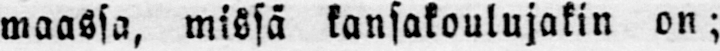maassa, missä kansakoulujakin on;
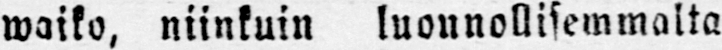waiko, niinkuin luonnollisemmalta
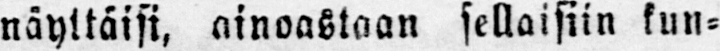näyttäisi, ainoastaan sellaisiin kun-
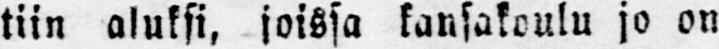tiin aluksi, joissa kansakoulu jo on
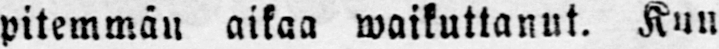pitemmän aikaa waikuttanut. Kun
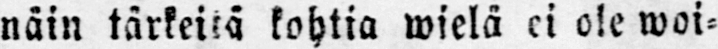näin tärkeitä kohtia wielä ei ole woi-
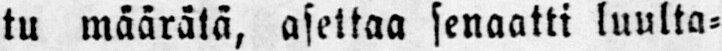tu määrätä, asettaa senaatti luulta-
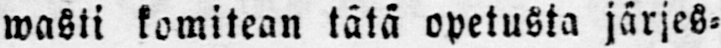wasti komitean tätä opetusta järjes-
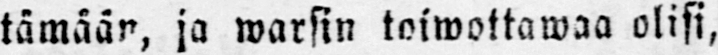tämään, ja warsin toiwottawaa olisi,
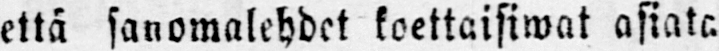että sanomalehdet koettaisiwat asiata
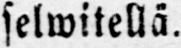selwitellä.
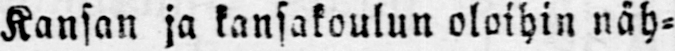Kansan ja kansakoulun oloihin näh-
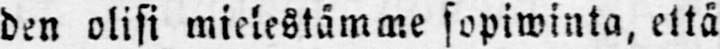den olisi mielestämme sopiwinta, että
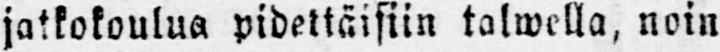jatkokoulua pidettäisiin talwella, noin
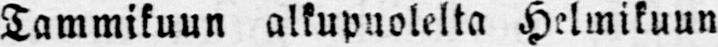Tammikuun alkupuolelta Helmikuun
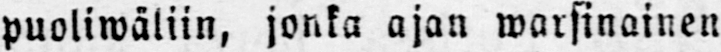puoliwäliin, jonka ajan warsinainen
